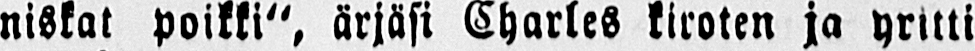niskat poikki", ärjäsi Charles kiroten ja yritti
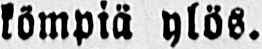kömpiä ylös.
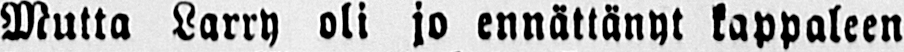Mutta Larry oli jo ennättänyt kappaleen
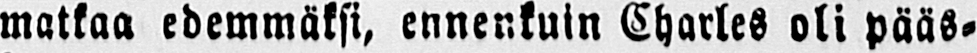matkaa edemmäksi, ennenkuin Charles oli pääs-
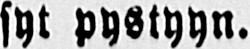syt pystyyn.
